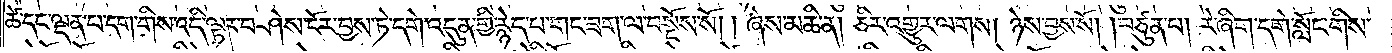ཚེ་དང་ལྡན་པ་དག་གིས་འདི་ལྟར་བཤེས་ངོར་བྱས་ཏེ་དགེ་འདུན་གྱི་རྙེད་པ་གང་ཟག་ལ་བསྔོས་སོ། །ཞེས་མཆི་ན། ཅིར་འགྱུར་ལགས། ཉེས་བྱས་སོ། །བཙུན་པ། རེ་ཞིག་དགེ་སློང་གིས་
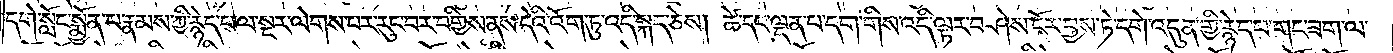དགེ་སློང་སྨྱོན་པ་རྣམས་ཀྱི་རྙེད་པ་ལ་སྔར་ལེགས་པར་རུང་བར་བགྱིས་ནས་དེའི་འོག་ཏུ་འདི་སྐད་ཅེས། ཚེ་དང་ལྡན་པ་དག་གིས་འདི་ལྟར་བཤེས་ངོར་བྱས་ཏེ་དགེ་འདུན་གྱི་རྙེད་པ་གང་ཟག་ལ་
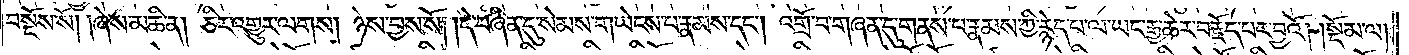བསྔོས་སོ། །ཞེས་མཆི་ན། ཅིར་འགྱུར་ལགས། ཉེས་བྱས་སོ། །དེ་བཞིན་དུ་སེམས་གཡེངས་པ་རྣམས་དང༌། འགྲོ་བ་གཞན་དུ་གནས་པ་རྣམས་ཀྱི་རྙེད་པ་ལ་ཡང་རྒྱ་ཆེར་བརྗོད་པར་བྱའོ། །སྡོམ་ལ།
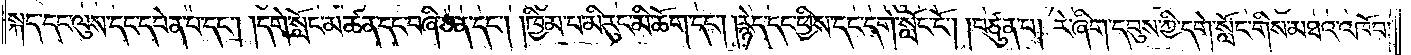སྐད་དང་ལུས་དང་དབེན་པ་དང༌། །དགེ་སློང་མཚན་དང་བཞི་ཅན་དང༌། །ཁྱིམ་པ་མི་རུང་མི་ཆོག་དང༌། །རྙེད་དང་ཕྱིས་དང་དགེ་སློང་ངོ༌། །བཙུན་པ། རེ་ཞིག་དབུས་ཀྱི་དགེ་སློང་གིས་མཐའ་འཁོབ་
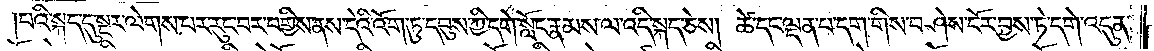པའི་སྐད་དུ་སྔར་ལེགས་པར་རུང་བར་བགྱིས་ནས་དེའི་འོག་ཏུ་དབུས་ཀྱི་དགེ་སློང་རྣམས་ལ་འདི་སྐད་ཅེས། ཚེ་དང་ལྡན་པ་དག་གིས་བཤེས་ངོར་བྱས་ཏེ་དགེ་འདུན་
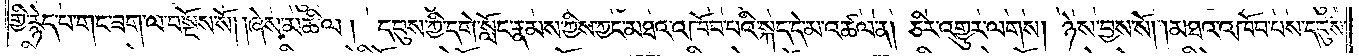གྱི་རྙེད་པ་གང་ཟག་ལ་བསྔོས་སོ། །ཞེས་མཆི་ལ། དབུས་ཀྱི་དགེ་སློང་རྣམས་ཀྱིས་ཀྱང་མཐའ་འཁོབ་པའི་སྐད་དེ་མ་འཚལ་ན། ཅིར་འགྱུར་ལགས། ཉེས་བྱས་སོ། །མཐའ་འཁོབ་པས་དབུས་
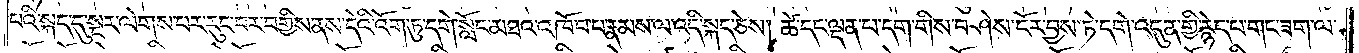པའི་སྐད་དུ་སྔར་ལེགས་པར་རུང་བར་བགྱིས་ནས་དེའི་འོག་ཏུ་དགེ་སློང་མཐའ་འཁོབ་པ་རྣམས་ལ་འདི་སྐད་ཅེས། ཚེ་དང་ལྡན་པ་དག་གིས་བཤེས་ངོར་བྱས་ཏེ་དགེ་འདུན་གྱི་རྙེད་པ་གང་ཟག་ལ་
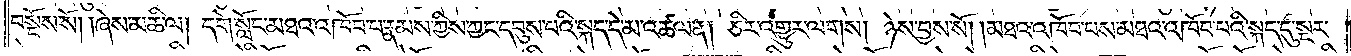བསྔོས་སོ། །ཞེས་མཆིལ། དགེ་སློང་མཐའ་འཁོབ་པ་རྣམས་ཀྱིས་ཀྱང་དབུས་པའི་སྐད་དེ་མ་འཚལ་ན། ཅིར་འགྱུར་ལགས། ཉེས་བྱས་སོ། །མཐའ་འཁོབ་པས་མཐའ་འཁོབ་པའི་སྐད་དུ་སྔར་
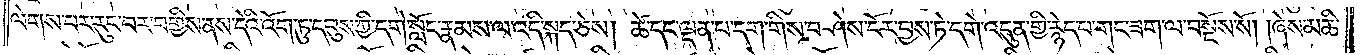ལེགས་པར་རུང་བར་བགྱིས་ནས་དེའི་འོག་ཏུ་དབུས་ཀྱི་དགེ་སློང་རྣམས་ལ་འདི་སྐད་ཅེས། ཚེ་དང་ལྡན་པ་དག་གིས་བཤེས་ངོར་བྱས་ཏེ་དགེ་འདུན་གྱི་རྙེད་པ་གང་ཟག་ལ་བསྔོས་སོ། །ཞེས་མཆི་
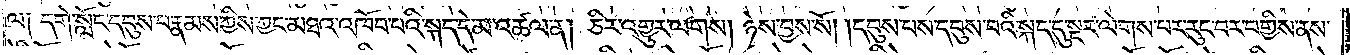ལ༑ དགེ་སློང་དབུས་པ་རྣམས་ཀྱིས་ཀྱང་མཐའ་འཁོབ་པའི་སྐད་དེ་མ་འཚལ་ན། ཅིར་འགྱུར་ལགས། ཉེས་བྱས་སོ། །དབུས་པས་དབུས་པའི་སྐད་དུ་སྔར་ལེགས་པར་རུང་བར་བགྱིས་ནས་
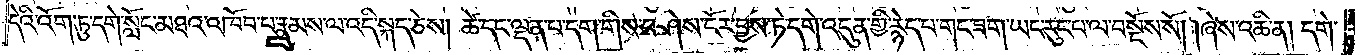དེའི་འོག་ཏུ་དགེ་སློང་མཐའ་འཁོབ་པ་རྣམས་ལ་འདི་སྐད་ཅེས། ཚེ་དང་ལྡན་པ་དག་གིས་བཤེས་ངོར་བྱས་ཏེ་དགེ་འདུན་གྱི་རྙེད་པ་གང་ཟག་ཡང་རུང་བ་ལ་བསྔོས་སོ། །ཞེས་མཆི་ན། དགེ་
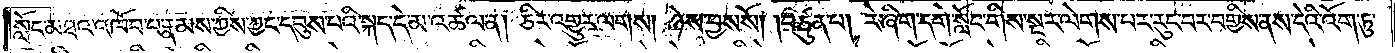སློང་མཐའ་འཁོབ་པ་རྣམས་ཀྱིས་ཀྱང་དབུས་པའི་སྐད་དེ་མ་འཚལ་ན། ཅིར་འགྱུར་ལགས། ཉེས་བྱས་སོ། །བཙུན་པ། རེ་ཞིག་དགེ་སློང་གིས་སྔར་ལེགས་པར་རུང་བར་བགྱིས་ནས་དེའི་འོག་ཏུ་
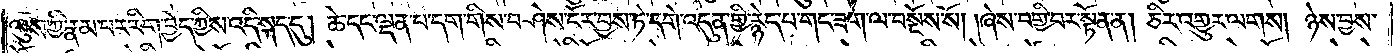ལུས་ཀྱི་རྣམ་པར་རིག་བྱེད་ཀྱིས་འདི་སྐད་དུ། ཚེ་དང་ལྡན་པ་དག་གིས་བཤེས་ངོར་བྱས་ཏེ་དགེ་འདུན་གྱི་རྙེད་པ་གང་ཟག་ལ་བསྔོས་སོ། །ཞེས་བགྱི་བར་སྟོན་ན། ཅིར་འགྱུར་ལགས། ཉེས་བྱས་
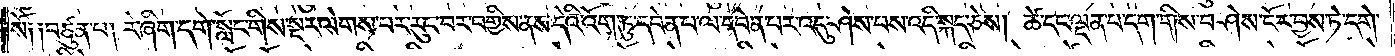སོ༑ ༑བཙུན་པ། རེ་ཞིག་དགེ་སློང་གིས་སྔར་ལེགས་པར་རུང་བར་བགྱིས་ནས་དེའི་འོག་ཏུ་དབེན་པ་ལ་དབེན་པར་འདུ་ཤེས་པས་འདི་སྐད་ཅེས། ཚེ་དང་ལྡན་པ་དག་གིས་བཤེས་ངོར་བྱས་ཏེ་དགེ་
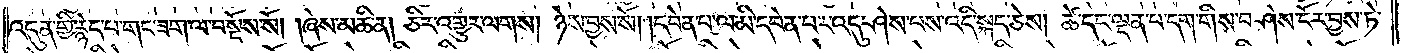འདུན་གྱི་རྙེད་པ་གང་ཟག་ལ་བསྔོས་སོ། །ཞེས་མཆི་ན། ཅིར་འགྱུར་ལགས། ཉེས་བྱས་སོ། །དབེན་པ་ལ་མི་དབེན་པར་འདུ་ཤེས་པས་འདི་སྐད་ཅེས། ཚེ་དང་ལྡན་པ་དག་གིས་བཤེས་ངོར་བྱས་ཏེ་
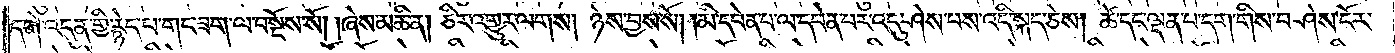དགེ་འདུན་གྱི་རྙེད་པ་གང་ཟག་ལ་བསྔོས་སོ། །ཞེས་མཆི་ན། ཅིར་འགྱུར་ལགས། ཉེས་བྱས་སོ། །མི་དབེན་པ་ལ་དབེན་པར་འདུ་ཤེས་པས་འདི་སྐད་ཅེས། ཚེ་དང་ལྡན་པ་དག་གིས་བཤེས་ངོར་
